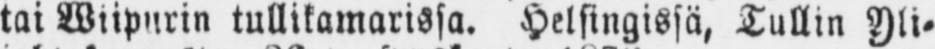tai Wiipurin tullikamarissa. Helsingissä, Tullin Yli-
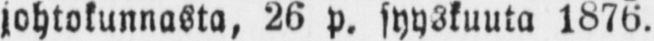johtokunnasta, 26 p. syyskuuta 1876.
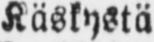Käskystä
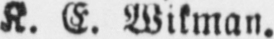K. E. Wikman.
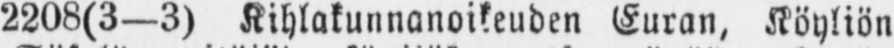2208(3—3) Kihlakunnanoikeuden Euran, Köyliön
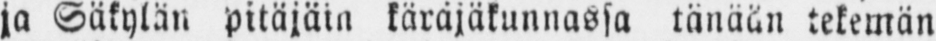ja Säkylän pitäjäin käräjäkunnassa tänään tekemän
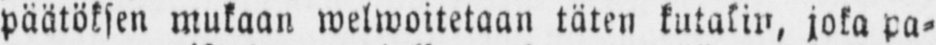päätöksen mukaan welwoitetaan täten kutakin, joka pa-
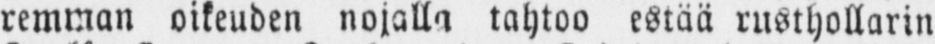remman oikeuden nojalla tahtoo estää rusthollarin
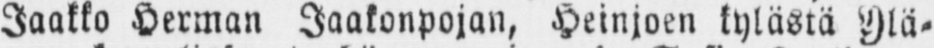Jaakko Herman Jaakonpojan, Heinjoen kylästä Ylä-
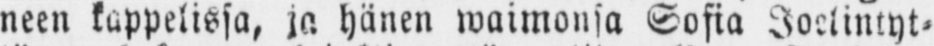neen kappelissa, ja hänen waimonsa Sofia Joelintyt-
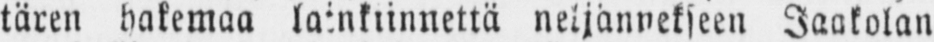tären hakemaa lainkiinnettä neljännekseen Jaakolan
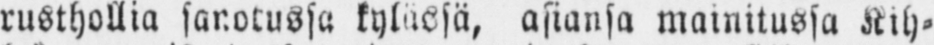rusthollia sanotussa kylässä, asiansa mainitussa Kih-
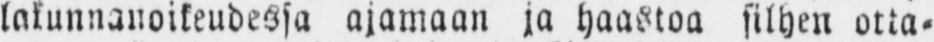lakunnanoikeudessa ajamaan ja haastaa silhen otta-
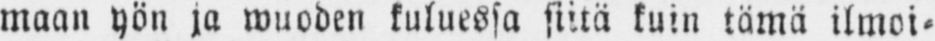maan yön ja wuoden kuluessa siitä kuin tämä ilmoi-
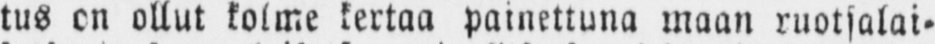tus on ollut kolme kertaa painettuna maan ruotsalai-
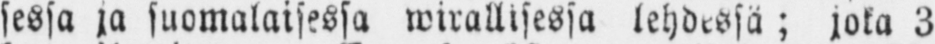sessa ja suomalaisessa wirallisessa lehdessä; joka 3
